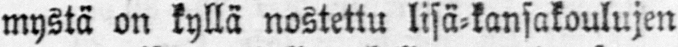mystä on kyllä nostettu lisä-kansakoulujen
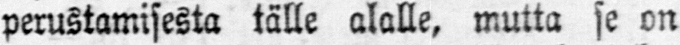perustamisesta tälle alalle, mutta se on
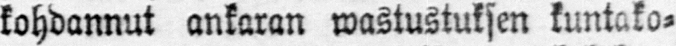kohdannut ankaran wastustuksen kuntako-
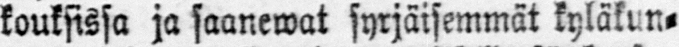kouksissa ja saanewat syrjäisemmät kyläkun-
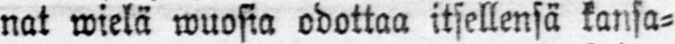nat wielä wuosia odottaa itsellensä kansa-
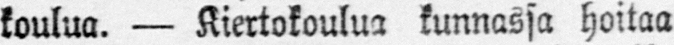koulua. — Kiertokoulua kunnassa hoitaa
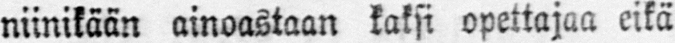niinikään ainoastaan kaksi opettajaa eikä
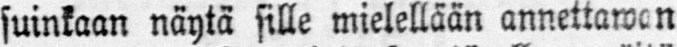suinkaan näytä sille mielellään annettawan
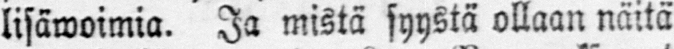lisäwoimia. Ja mistä syystä ollaan näitä
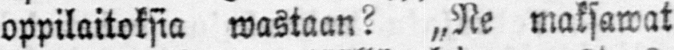oppilaitoksia wastaan? ˶Ne maksawat
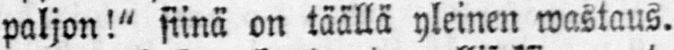paljon!" siinä on täällä yleinen wastaus.
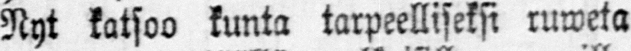Nyt katsoo kunta tarpeelliseksi ruweta
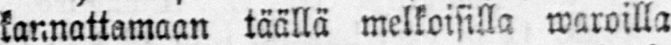kannattamaan täällä melkoisilla waroilla
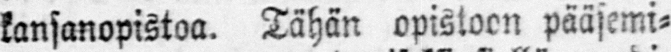kansanopistoa. Tähän opistoon pääsemi-
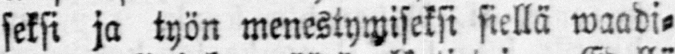seksi ja työn menestymiseksi siellä waadi-
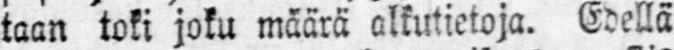taan toki joku määrä alkutietoja. Edellä
